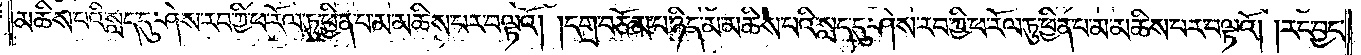མཆིས་པའི་སླད་དུ་ཤེས་རབ་ཀྱི་ཕ་རོལ་ཏུ་ཕྱིན་པ་མ་མཆིས་པར་བལྟའོ། །དགྲ་བཅོམ་པ་ཉིད་མ་མཆིས་པའི་སླད་དུ་ཤེས་རབ་ཀྱི་ཕ་རོལ་ཏུ་ཕྱིན་པ་མ་མཆིས་པར་བལྟའོ། །རང་བྱང་
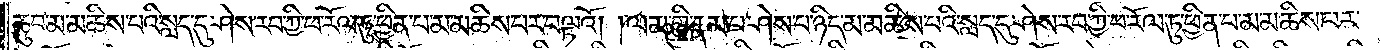ཆུབ་མ་མཆིས་པའི་སླད་དུ་ཤེས་རབ་ཀྱི་ཕ་རོལ་ཏུ་ཕྱིན་པ་མ་མཆིས་པར་བལྟའོ། །ལམ་གྱི་རྣམ་པ་ཤེས་པ་ཉིད་མ་མཆིས་པའི་སླད་དུ་ཤེས་རབ་ཀྱི་ཕ་རོལ་ཏུ་ཕྱིན་པ་མ་མཆིས་པར་
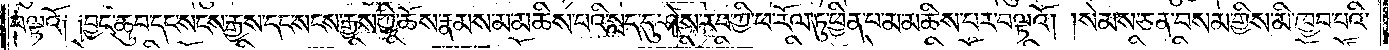བལྟའོ༑ ༑བྱང་ཆུབ་དང་སངས་རྒྱས་དང་སངས་རྒྱས་ཀྱི་ཆོས་རྣམས་མ་མཆིས་པའི་སླད་དུ་ཤེས་རབ་ཀྱི་ཕ་རོལ་ཏུ་ཕྱིན་པ་མ་མཆིས་པར་བལྟའོ། །སེམས་ཅན་བསམ་གྱིས་མི་ཁྱབ་པའི་
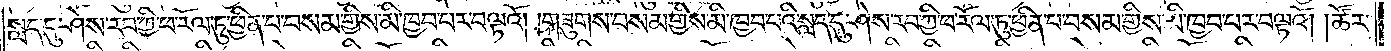སླད་དུ་ཤེས་རབ་ཀྱི་ཕ་རོལ་ཏུ་ཕྱིན་པ་བསམ་གྱིས་མི་ཁྱབ་པར་བལྟའོ། །གཟུགས་བསམ་གྱིས་མི་ཁྱབ་པའི་སླད་དུ་ཤེས་རབ་ཀྱི་ཕ་རོལ་ཏུ་ཕྱིན་པ་བསམ་གྱིས་མི་ཁྱབ་པར་བལྟའོ། །ཚོར་
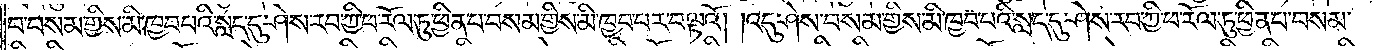བ་བསམ་གྱིས་མི་ཁྱབ་པའི་སླད་དུ་ཤེས་རབ་ཀྱི་ཕ་རོལ་ཏུ་ཕྱིན་པ་བསམ་གྱིས་མི་ཁྱབ་པར་བལྟའོ། །འདུ་ཤེས་བསམ་གྱིས་མི་ཁྱབ་པའི་སླད་དུ་ཤེས་རབ་ཀྱི་ཕ་རོལ་ཏུ་ཕྱིན་པ་བསམ་
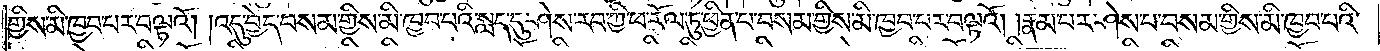གྱིས་མི་ཁྱབ་པར་བལྟའོ། །འདུ་བྱེད་བསམ་གྱིས་མི་ཁྱབ་པའི་སླད་དུ་ཤེས་རབ་ཀྱི་ཕ་རོལ་ཏུ་ཕྱིན་པ་བསམ་གྱིས་མི་ཁྱབ་པར་བལྟའོ། །རྣམ་པར་ཤེས་པ་བསམ་གྱིས་མི་ཁྱབ་པའི་
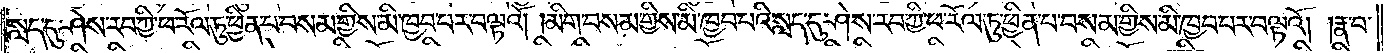སླད་དུ་ཤེས་རབ་ཀྱི་ཕ་རོལ་ཏུ་ཕྱིན་པ་བསམ་གྱིས་མི་ཁྱབ་པར་བལྟའོ། །མིག་བསམ་གྱིས་མི་ཁྱབ་པའི་སླད་དུ་ཤེས་རབ་ཀྱི་ཕ་རོལ་ཏུ་ཕྱིན་པ་བསམ་གྱིས་མི་ཁྱབ་པར་བལྟའོ། །རྣ་བ་
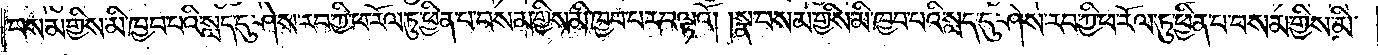བསམ་གྱིས་མི་ཁྱབ་པའི་སླད་དུ་ཤེས་རབ་ཀྱི་ཕ་རོལ་ཏུ་ཕྱིན་པ་བསམ་གྱིས་མི་ཁྱབ་པར་བལྟའོ། །སྣ་བསམ་གྱིས་མི་ཁྱབ་པའི་སླད་དུ་ཤེས་རབ་ཀྱི་ཕ་རོལ་ཏུ་ཕྱིན་པ་བསམ་གྱིས་མི་
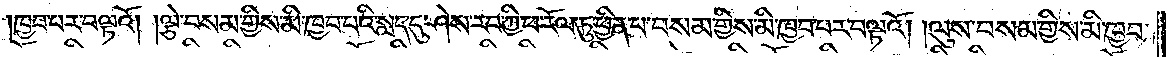ཁྱབ་པར་བལྟའོ། །ལྕེ་བསམ་གྱིས་མི་ཁྱབ་པའི་སླད་དུ་ཤེས་རབ་ཀྱི་ཕ་རོལ་ཏུ་ཕྱིན་པ་བསམ་གྱིས་མི་ཁྱབ་པར་བལྟའོ། ལུས་བསམ་གྱིས་མི་ཁྱབ་
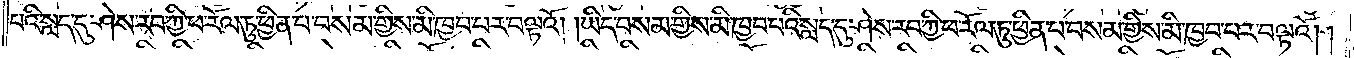པའི་སླད་དུ་ཤེས་རབ་ཀྱི་ཕ་རོལ་ཏུ་ཕྱིན་པ་བསམ་གྱིས་མི་ཁྱབ་པར་བལྟའོ། །ཡིད་བསམ་གྱིས་མི་ཁྱབ་པའི་སླད་དུ་ཤེས་རབ་ཀྱི་ཕ་རོལ་ཏུ་ཕྱིན་པ་བསམ་གྱིས་མི་ཁྱབ་པར་བལྟའོ། །
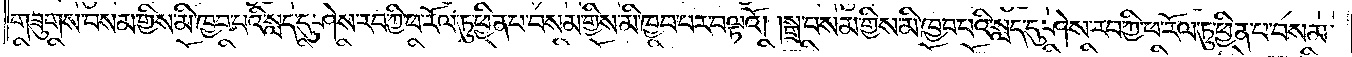གཟུགས་བསམ་གྱིས་མི་ཁྱབ་པའི་སླད་དུ་ཤེས་རབ་ཀྱི་ཕ་རོལ་ཏུ་ཕྱིན་པ་བསམ་གྱིས་མི་ཁྱབ་པར་བལྟའོ། །སྒྲ་བསམ་གྱིས་མི་ཁྱབ་པའི་སླད་དུ་ཤེས་རབ་ཀྱི་ཕ་རོལ་ཏུ་ཕྱིན་པ་བསམ་
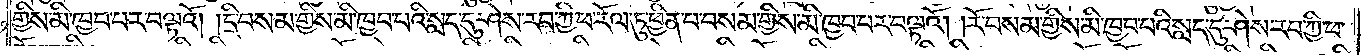གྱིས་མི་ཁྱབ་པར་བལྟའོ། །དྲི་བསམ་གྱིས་མི་ཁྱབ་པའི་སླད་དུ་ཤེས་རབ་ཀྱི་ཕ་རོལ་ཏུ་ཕྱིན་པ་བསམ་གྱིས་མི་ཁྱབ་པར་བལྟའོ། །རོ་བསམ་གྱིས་མི་ཁྱབ་པའི་སླད་དུ་ཤེས་རབ་ཀྱི་ཕ་
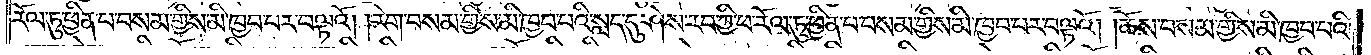རོལ་ཏུ་ཕྱིན་པ་བསམ་གྱིས་མི་ཁྱབ་པར་བལྟའོ། །རེག་བསམ་གྱིས་མི་ཁྱབ་པའི་སླད་དུ་ཤེས་རབ་ཀྱི་ཕ་རོལ་ཏུ་ཕྱིན་པ་བསམ་གྱིས་མི་ཁྱབ་པར་བལྟའོ། །ཆོས་བསམ་གྱིས་མི་ཁྱབ་པའི་
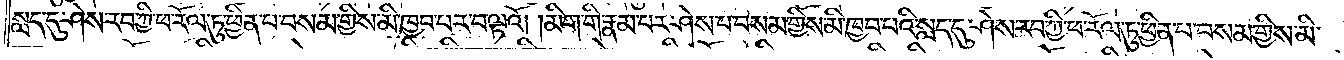སླད་དུ་ཤེས་རབ་ཀྱི་ཕ་རོལ་ཏུ་ཕྱིན་པ་བསམ་གྱིས་མི་ཁྱབ་པར་བལྟའོ། །མིག་གི་རྣམ་པར་ཤེས་པ་བསམ་གྱིས་མི་ཁྱབ་པའི་སླད་དུ་ཤེས་རབ་ཀྱི་ཕ་རོལ་ཏུ་ཕྱིན་པ་བསམ་གྱིས་མི་
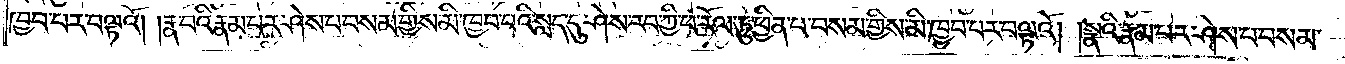ཁྱབ་པར་བལྟའོ། །རྣ་བའི་རྣམ་པར་ཤེས་པ་བསམ་གྱིས་མི་ཁྱབ་པའི་སླད་དུ་ཤེས་རབ་ཀྱི་ཕ་རོལ་ཏུ་ཕྱིན་པ་བསམ་གྱིས་མི་ཁྱབ་པར་བལྟའོ། །སྣའི་རྣམ་པར་ཤེས་པ་བསམ་
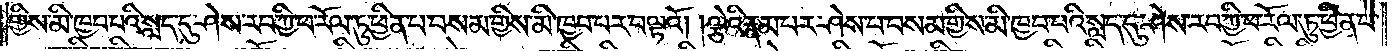གྱིས་མི་ཁྱབ་པའི་སླད་དུ་ཤེས་རབ་ཀྱི་ཕ་རོལ་ཏུ་ཕྱིན་པ་བསམ་གྱིས་མི་ཁྱབ་པར་བལྟའོ། །ལྕེའི་རྣམ་པར་ཤེས་པ་བསམ་གྱིས་མི་ཁྱབ་པའི་སླད་དུ་ཤེས་རབ་ཀྱི་ཕ་རོལ་ཏུ་ཕྱིན་པ་
